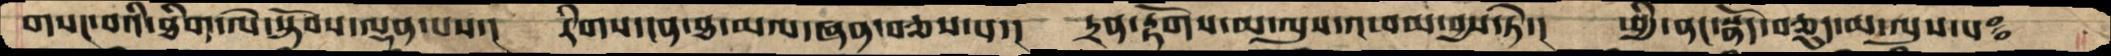གསང་བའི་ཐིག་ལེ་སྟོབས་ལྡན་པས་།  རིགས་ངན་ཐ་མལ་ཞན་བཅས་པ་།  དྲན་རྟོགས་མ་ལུས་འཕམ་བྱས་ཏེ་།  ཕྱི་ནང་སྣོད་བཅུད་མ་ལུས་པཿ
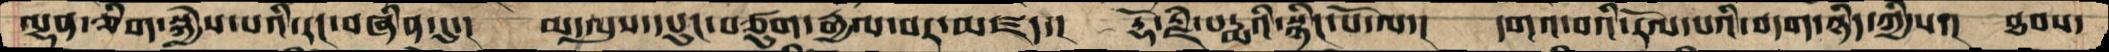ལྷན་ཅིག་སྐྱེས་པའི་རང་བཞིན་དུ་།  མ་ལུས་དཔུང་བཙུག་རྒྱལ་བར་མཛད་།  རྡོ་རྗེ་པདྨའི་སྙིང་པོ་ལ་།  དགའ་བའི་རོལ་པའི་བདག་ཉིད་ཀྱིས་།  ཐབས་
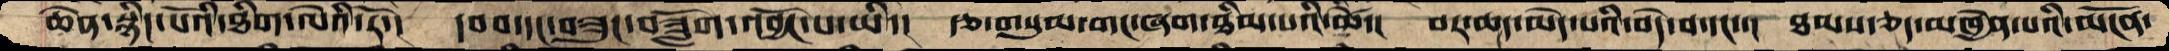ཆེན་སྙིང་པོའི་ཐིག་ལེའི་རོ་།  དབབ་དང་བཟུང་བཟློག་འབྱོང་པ་ཡི་།  རྩ་གསུམ་གང་ཞག་ཐིམ་པའི་ཚེ་།  བར་ཆད་མེད་པའི་བདེ་བ་དང་་།  ཐམས་ཅད་མཁྱེན་པའི་མངོན་
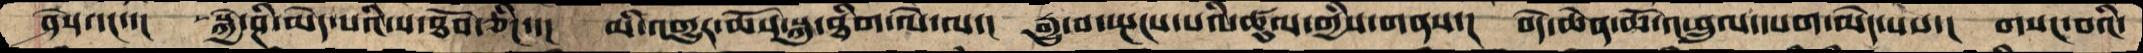ཤེས་དང་་།  སྐྱེ་ཤི་མེད་པའི་ས་ཐོབ་ཅིང་་།  མི་འགྱུར་ཆོས་སྐུ་ཐིག་ལེ་ལ་།  རྒྱུ་བ་སྤངས་པའི་ཚུལ་གྱིས་གནས་།  བདེ་ཆེན་ཆོ་འཕྲུལ་དཔག་མེད་པས་།  གསང་བའི་
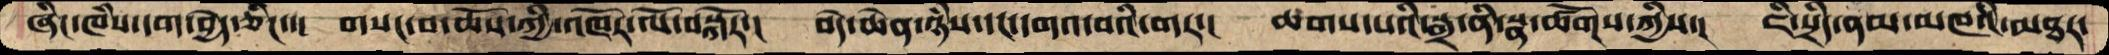ཞིང་ཁཾས་དག་བྱེད་ཅིང་་།  གསང་བ་ཆོས་ཀྱི་འཁོར་ལོ་བསྐོར་།  བདེ་ཆེན་ཉཾས་དང་དགའ་བའི་གར་།  ཆགས་པའི་སྒྲ་ནི་སྣ་ཚོགས་ཀྱིས་།  ཇི་སྲིད་ནམ་མཁའི་མཐར་
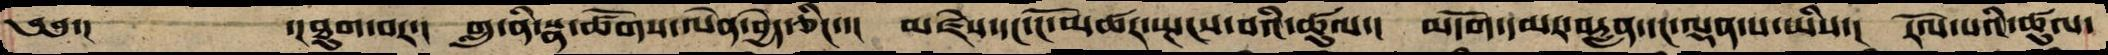༄༅་།     ་།ཐུག་བར་།  གྲུ་ནི་སྣ་ཚོགས་ལེན་བྱེད་ཅིང་་།  མཛེས་དང་ངོ་མཚར་སྤངས་བའི་ཚུལ་།   མདོག་དམར་བརླན་དང་ལྡན་པ་ཡིས་།  རོལ་པའི་ཚུལ་
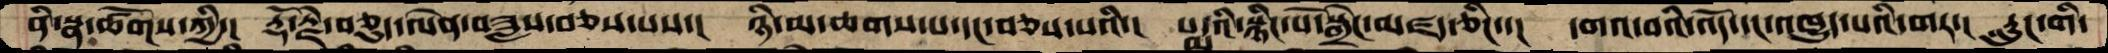ནི་སྣ་ཚོགས་ཀྱི་།  རྡོ་རྗེ་བཅུད་ལེན་བཟླས་བཅས་པས་།  ཉི་མ་ཆགས་པ་དང་བཅས་པའི་།  པདྨའི་སྙིང་པོ་སྒྲེང་མཛད་ཅིང་་།  དགའ་བའི་འོད་དང་འཁྱུད་པའི་གར་།  རླུང་གི་
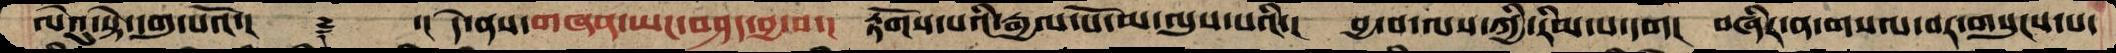ལེའུ་སྟེ་དགུ་པའོ་།   ࿑    ་།དེ་ནས་གཞན་ཡང་བཤད་བྱ་བ་།  རྟོགས་པའི་རྒྱལ་པོ་མ་ལུས་པའི་།  བྱ་བ་ལས་ཀྱི་རིམ་པ་དག།  བཞིར་ན་གསལ་བར་གསུངས་པ་
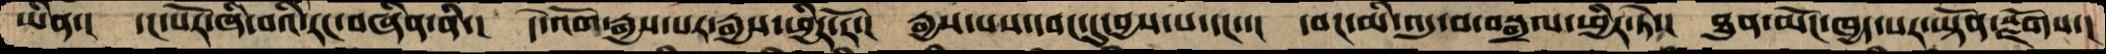ཡིན་།  དང་པོར་ཞི་བའི་རང་བཞིན་ནི་།  དེ་འོག་རྒྱས་པར་རྒྱས་ཕྱིར་རོ་།  རྒྱས་པས་དབང་དུ་བྱས་པ་དང་་།  དབང་མི་འདུ་བ་བསྒྲལ་ཕྱིར་ཏེ་།  ཐུན་མོང་ཁྱད་པར་ཡྟོན་སྫོགས་།
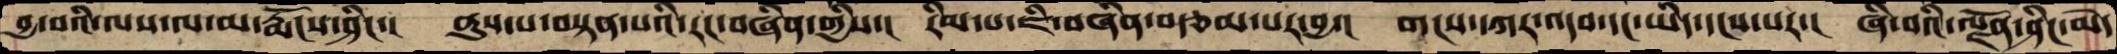བྱ་བའི་ལས་ལ་མ་རྨོངས་ཤིང་།  ནུས་པ་བསྟན་པའི་རང་བཞིན་གྱིས་།   རིམ་པ་ཇི་བཞིན་བརྩམ་པར་བྱ་།  གངས་དཀར་འདབ་དང་ཡིད་དངས་པར་།  ཞི་བའི་ལྗོན་ཤིང་མེ་
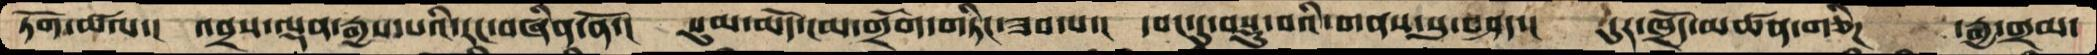ཏོག་ཚལ་།  འབྲས་ལྡན་རྒྱས་པའི་རང་བཞིན་ནོ་།  སུམ་མདོ་ངམ་གྲོག་གཏིང་ཟབ་པ་།  དབང་དུ་བསྡུ་བའི་གནས་སུ་བཤད་།  དུར་ཁྲོད་མཚན་གཅིཌ    ་རྒྱ་གྲམ་
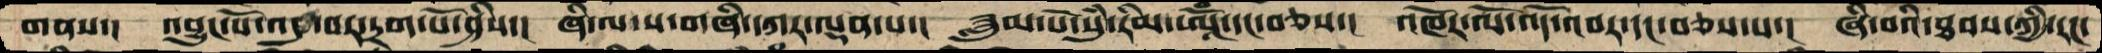གནས་།  འབྱུང་པོ་འདུ་བར་དྲག་པོ་ཤིས་།  ཞི་ལ་ས་གཞི་དཀར་ལྡན་པ་།  ཟླུམ་པོ་སུཾ་རིམ་ཨཱོཾ་དང་བཅས་།  འཁོར་ལོ་འོད་འབར་དང་བཅས་པ་།  ཞི་བའི་ཐབས་ཀྱི་རང་
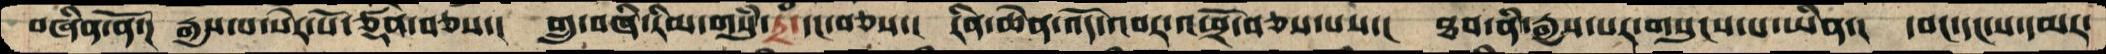བཞིན་ནོ་།  རྒྱས་བ་སེར་པོ་ཙནྡ་བཅས་།  གྲུ་བཞི་རིམ་གསུཾ་ཏྲཾ་དང་བཅས་།  རིན་ཆེན་འོད་འབར་འཕྲོ་བཅས་པས་།  ཐབ་ནི་རྒྱས་པར་གསུངས་པ་ཡིན་།  དབང་དང་ས་དམར་
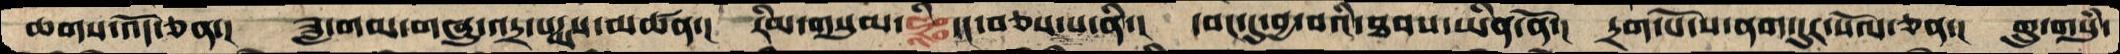ཆགས་འོད་ཅན་།  ཟླ་གམ་གཞུ་འདྲ་པདྨས་མཚན་།  རིམ་གསུམ་ཧྲཱིཿདང་བཅས་པ་ནི་།  དབང་དུ་བྱ་བའི་ཐབས་ཡིན་ནོ་།  དྲག་པོ་ས་ནག་དུར་སོལ་ཅན་།  གྲུ་གསུཾ་
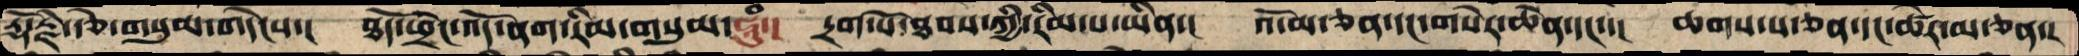རྡོ་རྗེ་རྩེ་གསུམ་གདེངས་།  ཐོད་ཕྲེང་འོད་ནག་རིམ་གསུམ་ཧཱུཾ་།  དྲག་པོ་ཐབས་ཀྱི་རིམ་པ་ཡིན་།  འོ་མ་ཅན་དང་གསེར་ཆེན་དང་་།  ཆགས་པ་ཅན་དང་ཚེར་མ་ཅན་།
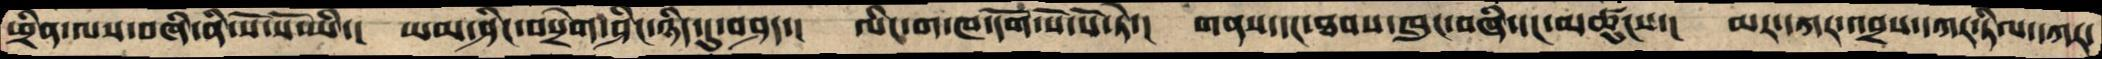ཕྲིན་ལས་བཞི་ནི་སོ་སོ་ཡི་།  ཡམ་ཤིང་བསྲེག་ཤིང་ཉིད་དུ་བཤད་།  ལིང་ག་ཁ་དོག་སོ་སོ་ཏེ་།  གནས་དང་ཐབས་ཁུང་བཞི་དང་མཚུངས་།  མར་དཀར་འབྲས་དཀར་ཏིལ་དཀར་
